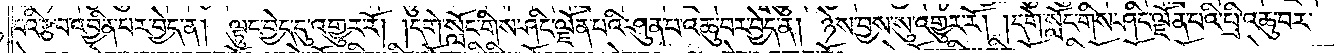པའི་རྩ་བ་འབྱིན་པར་བྱེད་ན། ལྟུང་བྱེད་དུ་འགྱུར་རོ། །དགེ་སློང་གིས་ཤིང་ལྗོན་པའི་ཤུན་པ་འཆུ་བར་བྱེད་ན། ཉེས་བྱས་སུ་འགྱུར་རོ། །དགེ་སློང་གིས་ཤིང་ལྗོན་པའི་བྲི་འཆུ་བར་
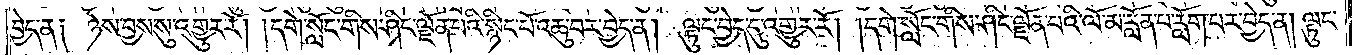བྱེད་ན༑ ཉེས་བྱས་སུ་འགྱུར་རོ། །དགེ་སློང་གིས་ཤིང་ལྗོན་པའི་སྙིང་པོ་འཆུ་བར་བྱེད་ན། ལྟུང་བྱེད་དུ་འགྱུར་རོ། །དགེ་སློང་གིས་ཤིང་ལྗོན་པའི་ལོ་མ་རློན་པ་རློག་པར་བྱེད་ན། ལྟུང་
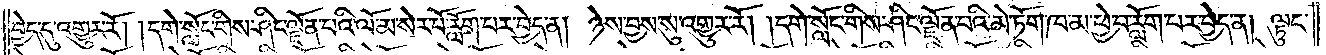བྱེད་དུ་འགྱུར་རོ། །དགེ་སློང་གིས་ཤིང་ལྗོན་པའི་ལོ་མ་སེར་པོ་རློག་པར་བྱེད་ན། ཉེས་བྱས་སུ་འགྱུར་རོ། །དགེ་སློང་གིས་ཤིང་ལྗོན་པའི་མེ་ཏོག་ཁ་མ་ཕྱེ་བ་རློག་པར་བྱེད་ན། ལྟུང་
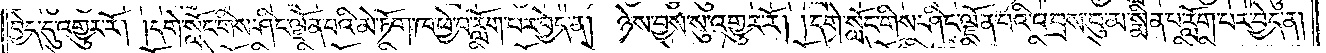བྱེད་དུ་འགྱུར་རོ། །དགེ་སློང་གིས་ཤིང་ལྗོན་པའི་མེ་ཏོག་ཁ་ཕྱེ་བ་རློག་པར་བྱེད་ན། ཉེས་བྱས་སུ་འགྱུར་རོ། །དགེ་སློང་གིས་ཤིང་ལྗོན་པའི་འབྲས་བུ་མ་སྨིན་པ་རློག་པར་བྱེད་ན།
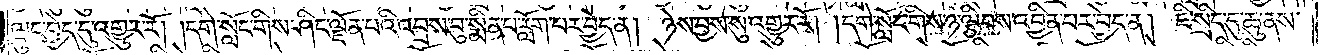ལྟུང་བྱེད་དུ་འགྱུར་རོ། །དགེ་སློང་གིས་ཤིང་ལྗོན་པའི་འབྲས་བུ་སྨིན་པ་རློག་པར་བྱེད་ན། ཉེས་བྱས་སུ་འགྱུར་རོ། །དགེ་སློང་གིས་ཉ་ལྕིབས་འབྱིན་པར་བྱེད་ན། ཇི་སྲིད་དུ་ཆུ་ནས་
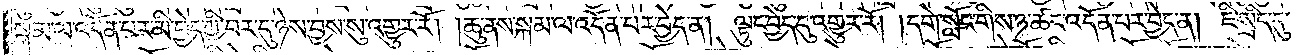སྐམ་ལ་འདོན་པར་མི་བྱེད་ཀྱི་བར་དུ་ཉེས་བྱས་སུ་འགྱུར་རོ། །ཆུ་ནས་སྐམ་ལ་འདོན་པར་བྱེད་ན། ལྟུང་བྱེད་དུ་འགྱུར་རོ། །དགེ་སློང་གིས་ཉ་ཚང་འདོན་པར་བྱེད་ན། ཇི་སྲིད་དུ་
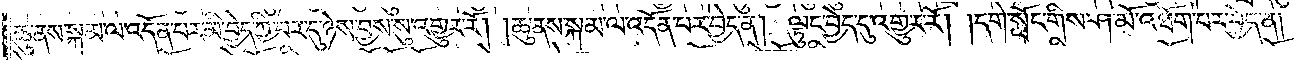ཆུ་ནས་སྐམ་ལ་འདོན་པར་མི་བྱེད་ཀྱི་བར་དུ་ཉེས་བྱས་སུ་འགྱུར་རོ། །ཆུ་ནས་སྐམ་ལ་འདོན་པར་བྱེད་ན། ལྟུང་བྱེད་དུ་འགྱུར་རོ། །དགེ་སློང་གིས་ཤ་མོ་འཐོག་པར་བྱེད་ན།
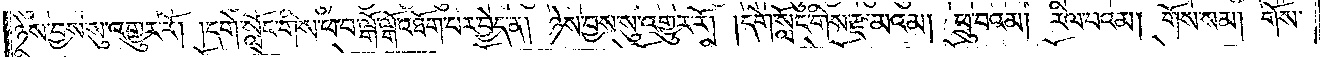ཉེས་བྱས་སུ་འགྱུར་རོ། །དགེ་སློང་གིས་ཕ་བ་ལྒོ་ལྒོ་འཐོག་པར་བྱེད་ན། ཉེས་བྱས་སུ་འགྱུར་རོ། །དགེ་སློང་གིས་རྫ་མའམ། ཕྲུ་བའམ། རིལ་བའམ། གོས་སམ། གོས་
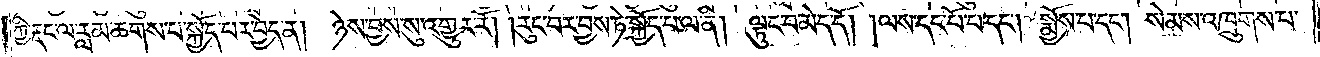ཀྱི་རྡང་ལ་རླམ་ཆགས་པ་སྐྱོད་པར་བྱེད་ན། ཉེས་བྱས་སུ་འགྱུར་རོ། །རུང་བར་བྱས་ཏེ་སྐྱོད་པ་ལ་ནི། ལྟུང་བ་མེད་དོ། །ལས་དང་པོ་པ་དང༌། སྨྱོས་པ་དང༌། སེམས་འཁྲུགས་པ་
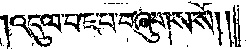འདུལ་བ་ཇ་པ་བཞུགས་སོ༎
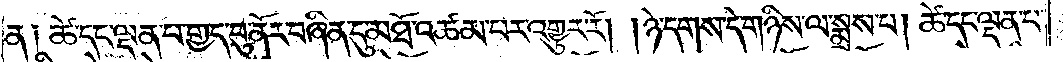ན༑ ཚེ་དང་ལྡན་པ་གྱད་བུ་ནོར་བཞིན་དུ་མཐོ་འཚམ་པར་འགྱུར་རོ། །ཉེ་དགས་དེ་གཉིས་ལ་སྨྲས་པ། ཚེ་དང་ལྡན་པ་
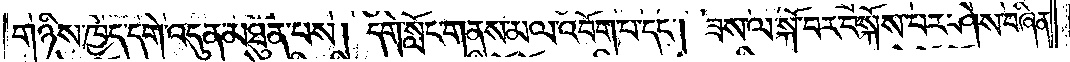གཉིས་ཁྱེད་དགེ་འདུན་མཐུན་པས། དགེ་སློང་གནས་མལ་འབོག་པ་དང༌། ཟས་ལ་སྐོ་བར་བསྐོས་པར་ཤེས་བཞིན་
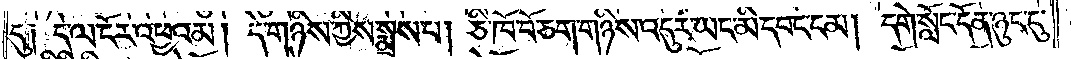དུ༑ དེ་ལ་ངོར་འཕྱའམ། དེ་གཉིས་ཀྱིས་སྨྲས་པ། ཅི་ཁོ་བོ་ཅག་གཉིས་འདུར་ཡང་མི་དབང་ངམ། དགེ་སློང་དོན་ཉུང་ངུ་
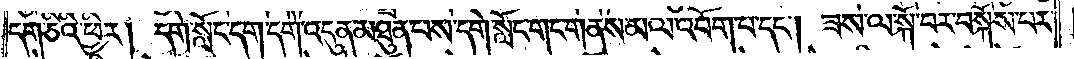དག་ཅིའི་ཕྱིར། དགེ་སློང་དག་དགེ་འདུན་མཐུན་པས་དགེ་སློང་གང་གནས་མལ་འབོག་པ་དང༌། ཟས་ལ་སྐོ་བར་བསྐོས་པར་
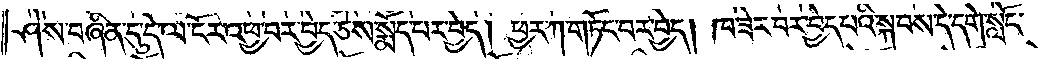ཤེས་བཞིན་དུ་དེ་ལ་ངོར་འཕྱ་བར་བྱེད་ཅེས་སྨོད་པར་བྱེད། ཕྱར་ཀ་གཏོང་བར་བྱེད། ཁ་ཟེར་བར་བྱེད་པའི་སྐབས་དེ་དགེ་སློང་
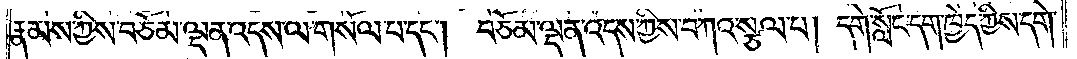རྣམས་ཀྱིས་བཅོམ་ལྡན་འདས་ལ་གསོལ་པ་དང༌། བཅོམ་ལྡན་འདས་ཀྱིས་བཀའ་སྩལ་པ། དགེ་སློང་དག་ཁྱེད་ཀྱིས་དགེ་
